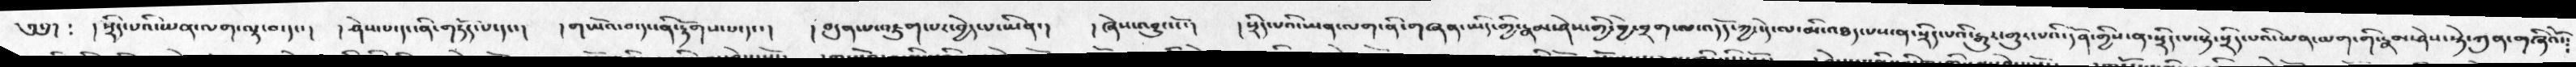༄༅།  ༴  །སྲིད་པའི་ཡན་ལག་ལྟ་བ་དང་།  །ཤེས་པ་དང་ནི་གཏོད་པ་དང་།  །གཡོའ་བ་དང་ནི་རྟོགས་པ་དང་།  །བདུན་པ་འཇུག་པར་བྱེད་པ་ཡིན་།  །ཞེས་འབྱུང་ངོ་།  །སྲིད་པའི་ཡན་ལག་ནི་གཞན་ཡིད་གྱི་རྣམ་ཤེས་གྱི་བྱེ་བྲག་ལ་འདོད་ཀྱང་དེ་ལ་མི་འཐད་པས་ན་སྲིད་པའི་རྒྱུར་གྱུར་པའི་དོན་གྱིས་ན་སྲིད་པ་སྟེ་་སྲིད་པའི་ཡན་ལག་གི་རྣམ་ཤེས་སྟེ་ཀུན་གཞིའོ་༴
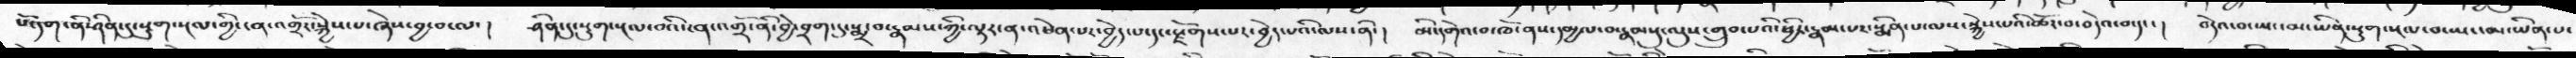པོ་དག་ནི་ཤིན་དུ་སྡུག་སྔལ་གྱི་ངན་འགྲོར་སྐྱེས་པ་ཞེས་བྱ་བ་ལ་།  ཤིན་དུ་སྡུག་སྔལ་བའི་ངན་འགྲོ་ནི་བྱེ་བྲག་དུ་སྨྲ་བ་རྣམས་ཀྱི་ལྟར་ན་འཕེན་པར་བྱེད་པ་དང་རྫོགས་པར་བྱེད་པའི་ལས་ནི་།  མི་དགེའ་བ་ཁོ་ནས་དམྱལ་བ་རྣམསུ་ལུས་གྲུབ་པའི་ཕྱིར་རྣམ་པར་སྨིན་པ་ལས་སྐྱེས་པའི་ཚོར་བ་བདེའ་བ་དང་།  བདེའ་བ་ཡང་མ་ཡིན་སྡུག་སྔལ་བ་ཡང་མ་ཡིན་པ་
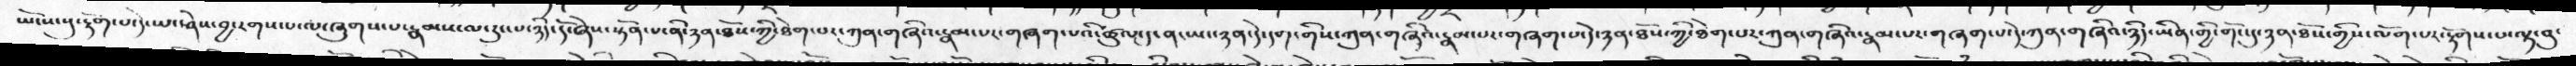ཡོངས་སུ་རྟོག་པ་དེ་ཡང་ཤེས་བྱ་རགས་པ་ལ་ཞུགས་པ་རྣམས་ལ་རུང་པ་ཉིད་དོ་ཞེས་སྟོན་པ་ནི་ཉན་ཐོས་ཀྱི་ཐེག་པར་ཀུན་གཞིའ་རྣམ་པར་གཞག་པའི་ཚུལ་དུ་ན་ཡང་ཉན་དེ་དག་གིས་ཀུན་གཞིའ་རྣམ་པར་གཞག་པ་དེ་ཉན་ཐོས་ཀྱི་ཐེག་པར་ཀུན་གཞིའ་རྣམ་པར་གཞག་པ་དེ་ཀུན་གཞིའ་ཉིད་ཡིན་གྱི་གོང་དུ་ཉན་ཐོས་གྱིས་ལོག་པར་རྟོགས་པ་ལྟ་བུ་
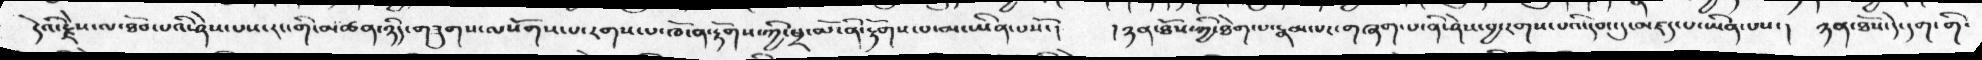དེའི་རྗེས་ལ་ཐོབ་པའི་ཤེས་པས་རང་གི་མཚན་ཉིད་གཟུགས་ལསོགས་པ་རགས་པ་ཁོ་ན་རྟོགས་ཀྱི་ཕྲ་མོ་ནི་རྟོགས་པ་མ་ཡིན་པསོ་།  །ཉན་ཐོས་ཀྱི་ཐེག་པ་རྣམ་པར་གཞག་པ་ནི་ཤེས་བྱ་རགས་པའི་དབང་དུ་མཛད་པ་ཡིན་པས་།  ཉན་ཐོས་དེ་དག་གི་
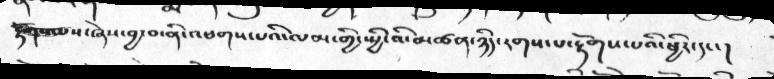རྟོགས་པས་ཞེས་བྱ་བ་ནི་འཕགས་པའི་ལམ་གྱི་སྤྱི་འི་མཚན་ཉིད་རགས་པ་རྟོགས་པའི་ཕྱིར་དང་།
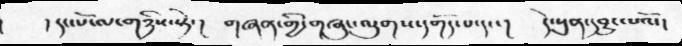།   །དང་པོ་ལ་གཉིས་སྟེ་།  གཞན་གྱི་གཞུང་ལུགས་དགོད་པ་དང་།  དེ་སུན་དབྱུང་པའོ་།
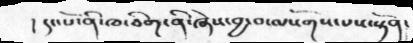། དང་པོ་ནི་ཁ་ཅིག་ནི་ཞེས་བྱ་བ་ལསོགས་པས་སྟོན་
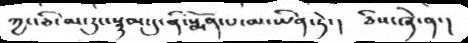ཀྱང་ཅི་མ་རུང་སྙམ་དུ་ནི་སྨོན་པ་མ་ཡིན་ཏེ་།  ཅིས་ཞེ་ན་།
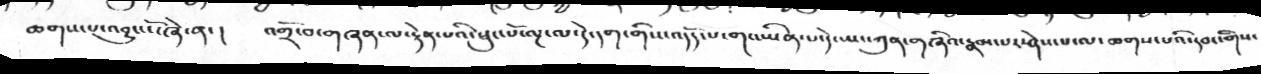ཆགས་པ་འབྱུང་ངོ་ཞེ་ན་།   འགྲོ་བ་གཞན་ལ་རྟེན་པའི་ཕུང་པོ་ལྔ་ལ་དེ་དག་གིས་འདོད་པ་གང་ཡིན་པ་དེ་ཡང་ཀུན་གཞིའ་རྣམ་པར་ཤེས་པ་ལ་ཆགས་པའི་དབང་གིས་
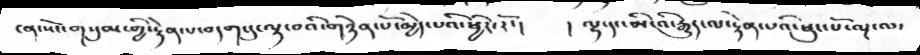ངན་སོང་གསུམ་གྱི་རྟེན་པ་བདག་དུ་ལྟ་བའི་གཉེན་པོ་མྱེད་པའི་ཕྱིར་རོ་།   །ལྷ་དང་མི་འི་རྒྱུད་ལ་རྟེན་པའི་ཕུང་པོ་ལྔ་ལ་
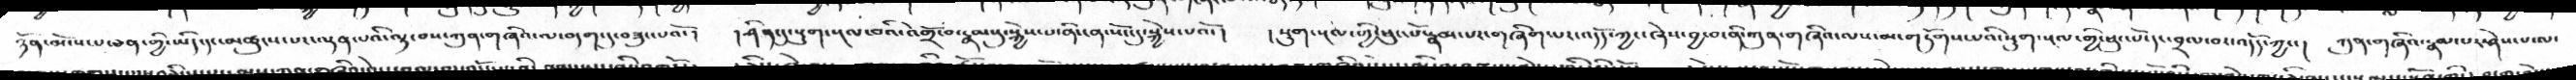ཉོན་མོངས་པ་ཅན་གྱི་ཡིད་དང་མཚུངས་པར་ལྡན་པའི་ལྟ་བས་ཀུན་གཞིའ་ལ་བདག་དུ་བཟུང་པའོ་།  །ཤིན་དུ་སྡུག་སྔལ་བའི་འགྲོ་བ་རྣམསུ་སྐྱེས་པ་ནི་ངན་སོང་དུ་སྐྱེས་པའོ་།  །སྡུག་སྔལ་གྱི་ཕུང་པོ་རྣམ་པར་གཞིག་པར་འདོད་ཀྱང་ཞེས་བྱ་བ་ནི་ཀུན་གཞིའ་ལས་མ་གཏོགས་པའི་སྡུག་སྔལ་གྱི་ཕུང་པོ་དང་བྲལ་བར་འདོད་ཀྱང་།  ཀུན་གཞིའ་རྣམ་པར་ཤེས་པ་ལ་
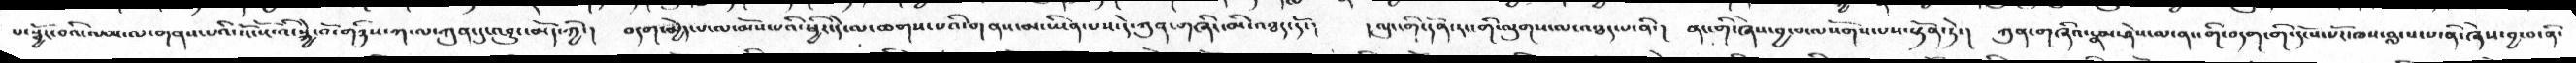པ་སྦྱོང་བའི་ལམ་ལ་གནས་པའི་སོ་པོ་འི་སྐྱེ་བོ་གཉིས་ཀ་ལ་ཀུན་དུ་འབྱུང་མོད་ཀྱི་།  བདག་མྱེད་པ་ལ་མོས་པའི་ཕྱིར་དེ་མ་ཆགས་པའི་གནས་མ་ཡིན་པས་དེ་ཀུན་གཞི་མི་འཐད་དོ་།  །ལུང་གི་དོན་རང་གི་ལུགས་ལ་འཐད་པ་ནི་།  ནང་གི་ཞེས་བྱ་བ་ལསོགས་པས་སྟོན་ཏེ་།  ཀུན་གཞིའ་རྣམ་ཤེས་ལ་ནང་གི་བདག་གི་དངོས་པོར་ཁས་བླངས་པ་ནི་ཞེས་བྱ་བ་ནི་།
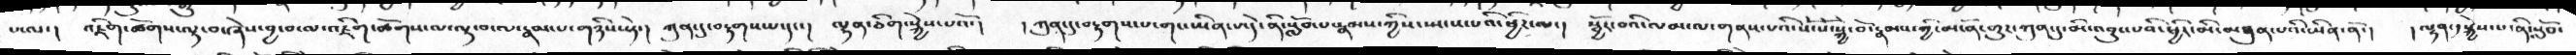པ་ལ་།  འཇིག་ཚོགས་ལྟ་བ་ཞེས་བྱ་བ་ལ་འཇིག་ཚོགས་ལ་ལྟ་བ་ལ་རྣམ་པ་གཉིས་སྟེ་།  ཀུན་དུ་བརྟགས་པ་དང་།   ལྷན་ཅིག་སྐྱེས་པའོ་།   །ཀུན་དུ་བརྟགས་པ་གང་ཡིན་པ་དེ་ནི་སློབ་པ་རྣམས་ཀྱིས་སྤངས་པའི་ཕྱིར་ལ་།  སྦྱོར་བའི་ལམ་ལ་གནས་པའི་སོ་སོ་སྐྱེ་བོ་རྣམས་གྱི་མངོན་གྱུར་ཀུནདདུ་མི་འབྱུང་པའི་ཕྱིར་མི་མཐུན་པའི་ཡིན་ནོ་།  །ལྷན་༡སྐྱེས་པ་ནི་སློབ་
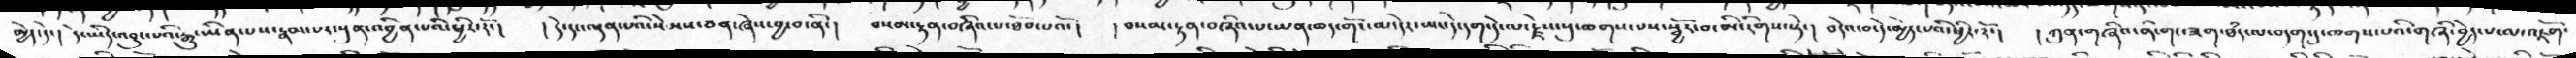མྱེད་དེ་།  དེ་ཡིད་འབྱུང་པའི་རྒྱུ་ཡིན་པས་རྣམ་པར་སུན་་འབྱིན་པའི་ཕྱིར་རོ་།  །དེ་དང་ལྡན་པའི་སེམས་ཅན་ཞེས་བྱ་བ་ནི་།  བསམ་རྟན་བཞིའ་པ་ཐོབ་པའོ་།   །བསམ་རྟན་བཞིའ་པ་ཡན་ཆད་གོང་མ་དེར་ཡང་དེ་དག་དེ་ལ་རྗེས་སུ་ཆགས་པས་སྦྱོར་བ་མི་རིགས་སྟེ་།   བདེའ་བ་དེ་མྱེད་པའི་ཕྱིར་རོ་།  །ཀུན་གཞིའ་ནི་གང་ཟག་ཐཾད་ལ་བདག་དུ་ཆགས་པའི་གཞི་བྱེད་པ་ལ་འཇོག་
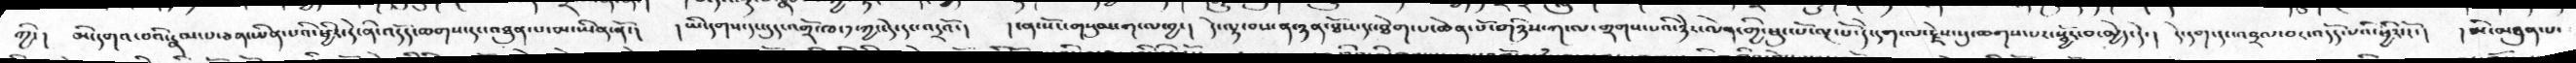ཀྱི་།  མི་དགའ་བའི་རྣམ་པ་ཅན་ཡིན་པའི་ཕྱིར་དེ་ནི་འདོད་ཆགས་དང་འཐུན་པ་མ་ཡིན་ནོ་།  །ཡི་དགས་དང་དུད་འགྲོ་ཁ་༡་ཀྱང་དེ་དང་འདྲའོ་།  །ངན་སོང་གསུམ་ག་ལ་བྱ་།  དེ་ལྟ་བས་ན་ཉན་ཐོས་དང་ཐེག་པ་ཆེན་པོ་གཉིས་ཀ་ལ་གྲགས་པའི་ཉེར་ལེན་གྱི་ཕུང་པོ་ལྔ་པོ་དེ་དག་ལ་རྗེས་སུ་ཆགས་པར་སྦྱོར་བ་མྱེད་དེ་།  དེ་དག་དང་བྲལ་བར་འདོད་པའི་ཕྱིར་རོ་།  །མི་མཐུན་པ་
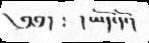༄༅།  ༴  །ཡོད་དོ་།
